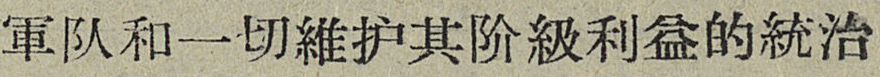軍队和一切維护其阶級利益的統治
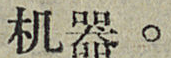机器。
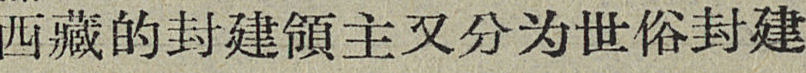西藏的封建領主又分为世俗封建
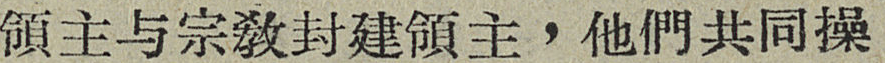領主与宗敎封建領主，他們共同操
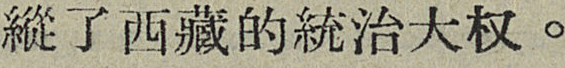縱了西藏的統治大权。
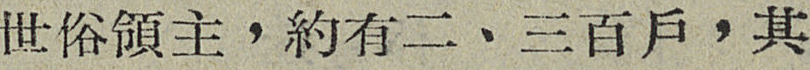世俗領主，約有二、三百戶，其
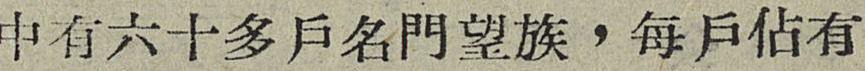中有六十多戶名門望族，每戶佔有
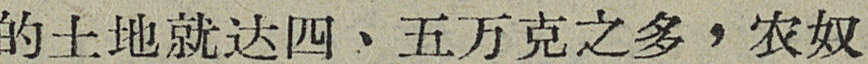的土地就达四、五万克之多，农奴
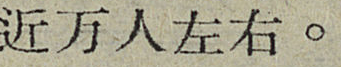近万人左右。
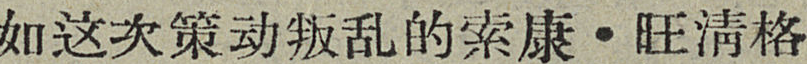如这次策动叛乱的索康・旺清格
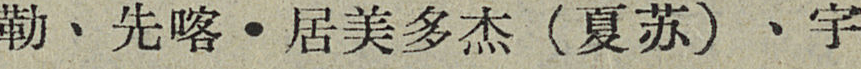勒、先喀・居美多杰（夏）、宇
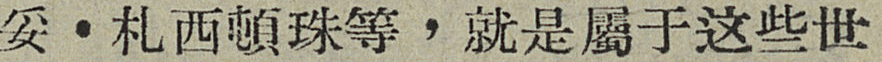妥・札西頓珠等，就是屬于这些世
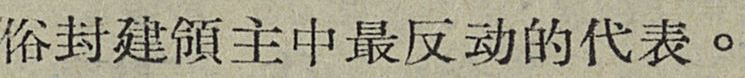俗封建領主中最反动的代表。
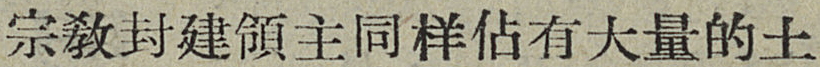宗敎封建領主同样佔有大量的土
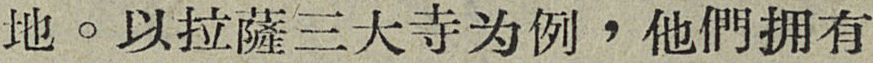地。以拉薩三大寺为例，他們拥有
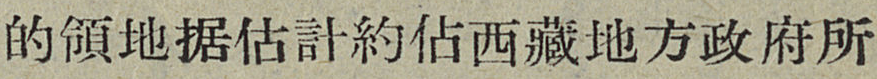的領地据估計約佔西藏地方政府所
